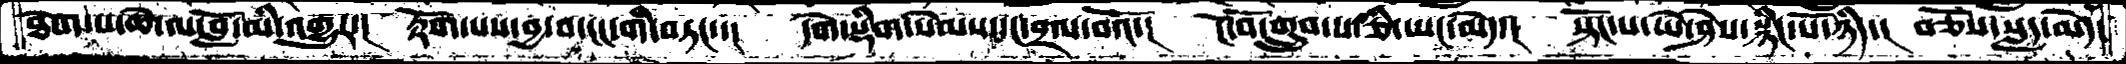ཐེག་པ་ཆེ་ལ་བློ་མི་འགྱུར་། རྟོག་པས་བྱ་བ་ངང་གི་བཏང་་། དགེ་སྡིག་སེམས་དང་བྲལ་བའོ་། ངོ་བོ་གྲུབ་པ་ཅི་ཡང་མེད་། སྟོང་པ་ཡེ་ཤེས་སྙིང་པོ་ཉིད་། བཅོས་སླད་མེད
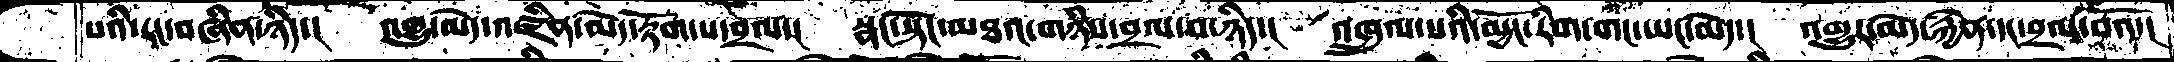པའི་རང་བཞིན་ཉིད་།  འགྱུ་མེད་འཛིན་མེད་རྟོག་པ་བྲལ་།  སྣང་སྟོང་མཐའ་གཉིས་བྲལ་བ་ཉིད་།  འཁྲུལ་པའི་མྱོང་རིག་གང་ཡང་མེད་།  འགྱུར་མེད་རྐྱེན་དང་བྲལ་བའོ་།
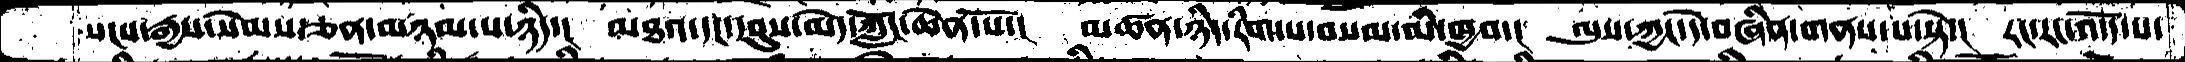སངས་རྒྱས་སེམས་ཅན་མཉམ་པ་ཉིད་།  མཐའ་དང་དབུས་མེད་ཀློང་ཆེན་པོ་།  མཚན་ཉིད་རིག་པ་བསམ་མི་ཁྱབ་།  ལུས་ཀྱང་དེ་བཞིན་གནས་པ་སྟེ་།  རང་རང་འདོད་པ་
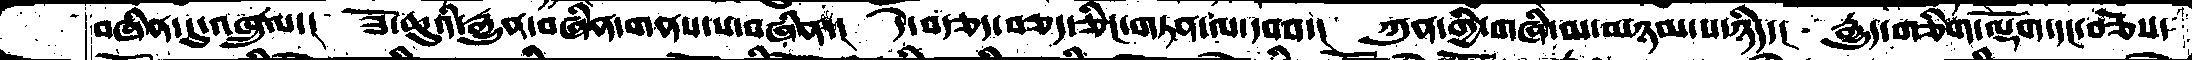བཞིན་དུ་འཁྲུལ་།  ཟོ་ཆུའི་རྒྱུན་བཞིན་གནས་པ་བཞིན་།  དེ་བརྩད་བཅད་ཅིང་གཏན་ལ་དབབ་།  ཀུན་གྱི་གཞི་མ་མཉམ་པ་ཉིད་།  རྒྱུད་གཅིག་ལྡོག་དང་བཅས་
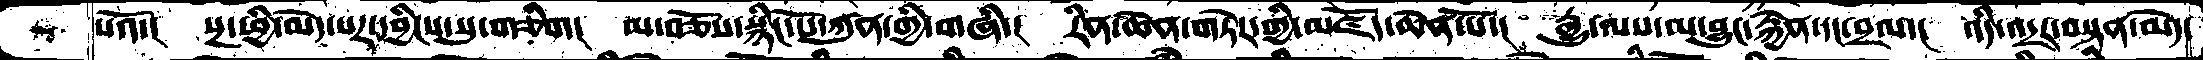པའོ་། སྔ་ཕྱི་མེད་པར་དབྱིངས་སུ་གཅིག། མབཅོས་སྙིང་པོ་ཀུན་གྱི་བཞི་། རིན་ཆེན་གཏེར་གྱི་མཛོད་ཆེན་པོ་། རྒྱུ་ལས་མ་བྱུང་རྐྱེན་དང་བྲལ་། འདི་འདྲར་བསྟན་མེད་
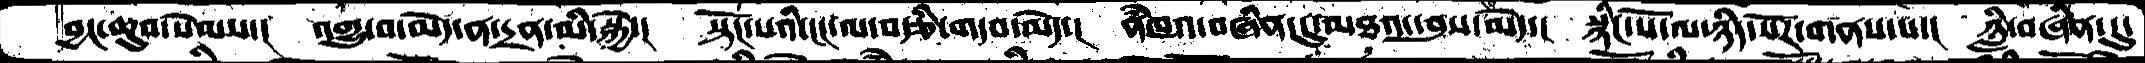བྱང་ཆུབ་སེམས་།  འགྱུ་བ་མེད་ན་དྲན་མི་སྐྱེ་།  སྟོང་པའི་ངང་ལ་བརྩི་གདབ་མེད་།  ནཾཁའ་བཞིན་དུ་མཐའ་དབུས་མེད་།  སྙིང་པོ་ལ་ཉིད་སོར་གནས་པ་།  ཉླི་བཞིན་དུ་
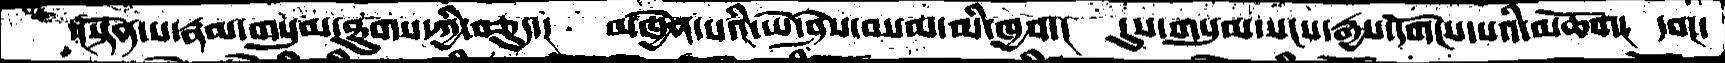་།སྟོན་པ་རྣམ་གསུམ་ཐུགས་ཀྱི་བཅུད་། མཁྱེན་པའི་ཡེ་ཤེས་བསམ་མི་ཁྱབ་།  དུས་གསུམ་སངས་རྒྱས་དགོངས་པའི་མཆོག།  དབང་
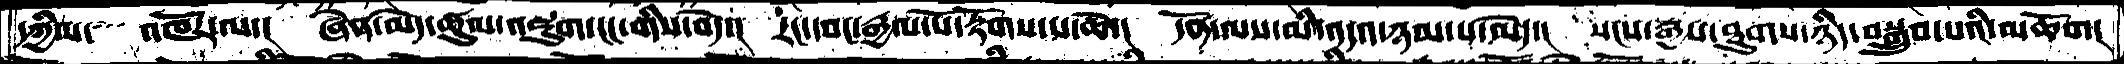དཀྱིལ་  འཁོར་ལ་།  ཞེན་མེད་ཚུལ་འཇུག་ངང་གིས་བདེ་།  རང་དབང་རྒྱལ་པོ་རྟོགས་པ་ཆེ་།  དོན་ལས་མི་འདའ་ཉམས་པ་མེད་།  སངས་རྒྱས་ཐུགས་ཉིད་བསྒྲུབ་པའི་མཆོག།
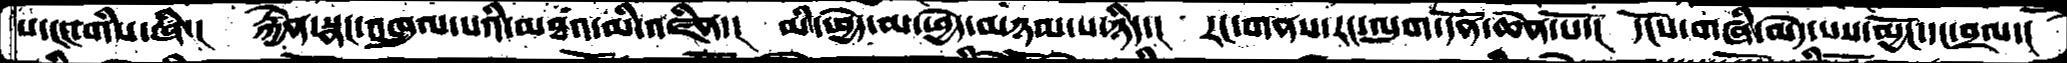པ་ངང་གིས་ཞི་།  རྐྱེན་སྣང་འཁྲུལ་པའི་མཐའ་མི་འཛིན་།  མི་ཕྱེད་མ་ཕྱེད་མཉམ་པ་ཉིད་།  རང་གནས་རང་ལུག་དོན་ཆེན་པོ་།  དངོས་གཞི་མེད་པས་མྱོང་དང་བྲལ་།
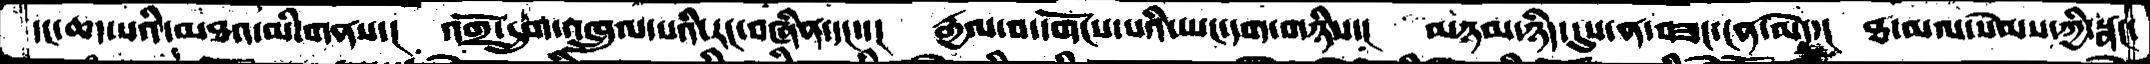དང་ཆད་པའི་མཐའ་མི་གནས་།  འགྲོ་དྲུག་འཁྲུལ་པའི་རང་བཞིན་དང་་།  རྒྱལ་བ་དགོངས་པའི་ཡང་དག་གཉིས་།  མཉམ་ཉིད་དུས་ན་བཟང་ངན་མེད་།  ཐ་མལ་སེམས་ཀྱི་སྣང་
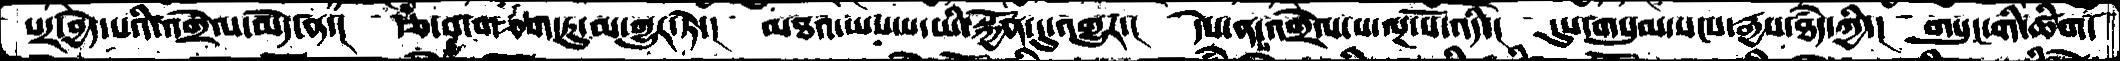པར་བྱེད་པའི་འགྲེལ་མེད་ན་། རྩ་བ་གཅིག་ཏུ་མ་གྱུར་ཏེ་། མཐའ་ཡས་པ་ཡི་སྐྱོན་དུ་འགྱུར་། དེས་ནས་འགྲེལ་པ་ལྔ་པོ་འདི་། དུས་གསུམ་སངས་རྒྱས་ཐཾད་ཀྱི་། གསུང་གི་ཚིག་
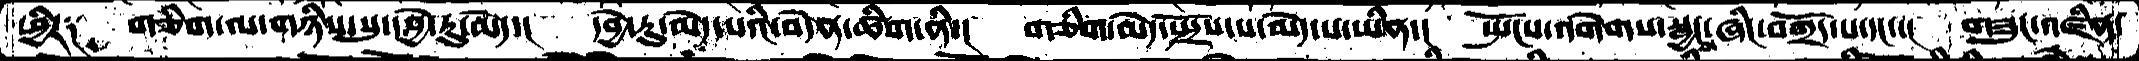ཕྱིར༑  གཅིག་ལ་གཉིས་སུ་དབྱེ་རུ་མེད་།  དབྱེ་རུ་མེད་པའི་བདེན་ཚིག་ནི་། གཅིག་མེད་སྤྲོས་པ་མེད་པ་ཡིན་། སྤོངས་འགེགས་སྦྱངས་ཞིང་བགྲོད་པ་དང་་།  གཟུང་འཛིན་
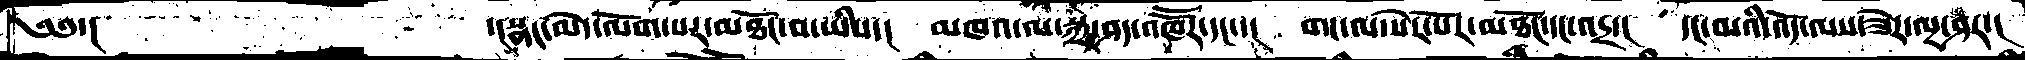༄༅་།        ་།སྣང་མེད་ལོག་པར་མཐོང་བ་ཡིས་།  མཁའ་ལ་སྐྲ་ཤད་འཁཽར་དང་་།  གང་ལ་སེར་པོར་མཐོང་དང་འདྲ་། དང་མའི་འོད་ལས་ཟེར་ལྔ་ཤར་།
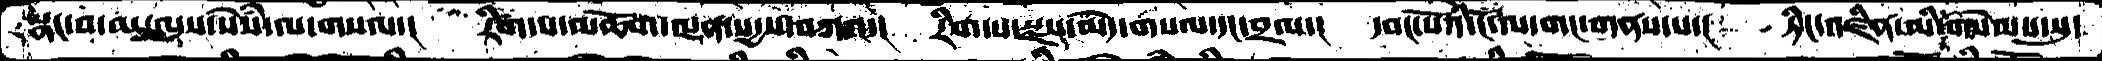སྣང་བ་མ་ལུས་སེཾས་ལ་གསལ་།  རིག་པ་མཆོག་ལྡན་སདྱས་བཀའ་།  རིག་པ་སྫས་མེད་གསལ་དང་བྲལ་། དབང་པོའི་ངོ་ལ་གང་གནས་པ་།  ཏིང་འཛིན་མི་རྟག་སེམས་སུ་
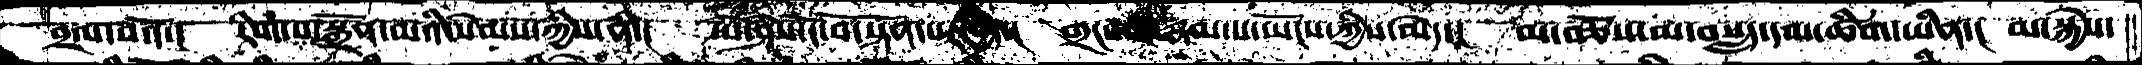བྲལ་བའོ་།  རིག་པ་སྒྲོན་མའི་སེམས་ཀྱིས་ནི་།  ཡེ་ཤེས་ངོ་བོ་སྟོན་པར་བྱེད་།  གྲངས་པའི་རྣམ་པ་ཡོངས་ཀྱིས་མེད་།  མ་བཅོས་མ་བསླད་དམ་ཚིག་ཡིན་།  མ་སྐྱེས་
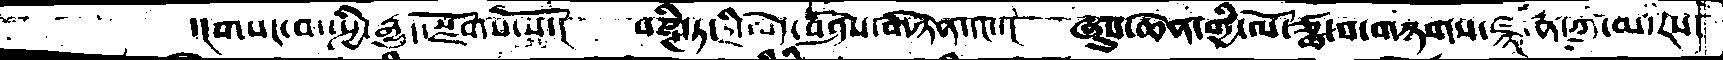་།གསང་བ་སྤྱི་རྒྱུད་སྫོགས་སོ་།  པཎྚི་ཏ་དྲི་མེད་བཤེས་གཉེན་དང་་།  ཞུས་ཆེན་གྱི་ལོ་ཙྪ་བ་གཉགས་ཛྙཱ་ན་ཀུ་མ་རས་
